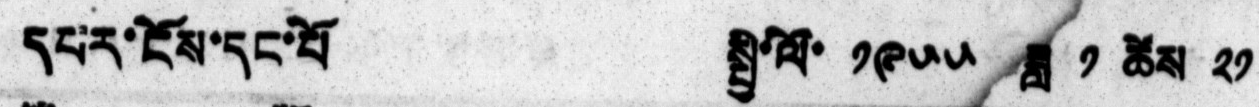དཔར་ངོས་དང་པོ   སྤྱི་ལོ་ ༡༩༥༥ ཟླ་ ༡ ཚེས ༢༡
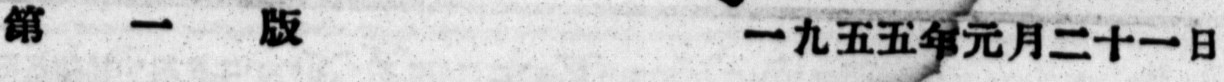第 一 版 一九五五年元月二十一日
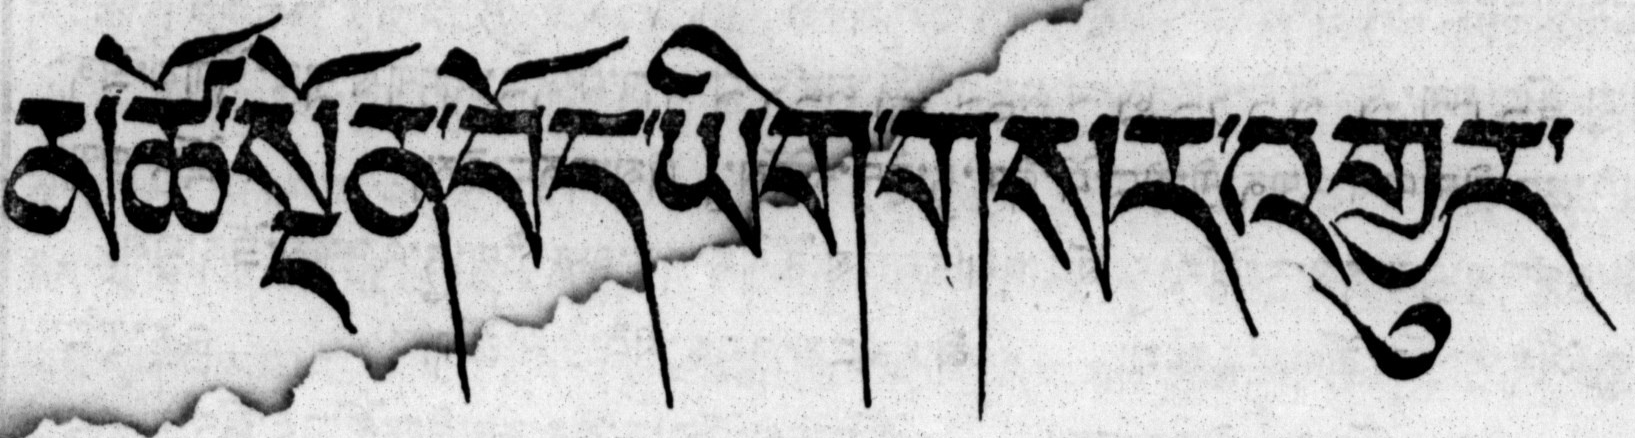མཚོ་སྔོན་བོད་ཡིག་གསར་འགྱུར་
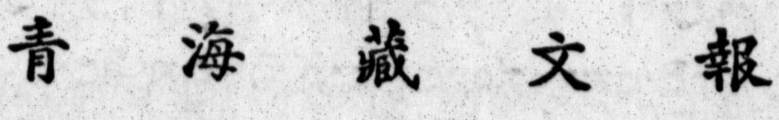青 海 藏 文 報
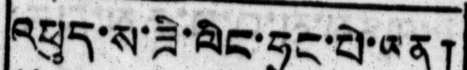འཕུད་ས་ཟི་ལིང་ཧྲང་པེ་ཡན།
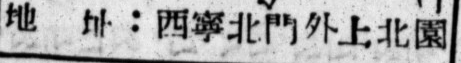地 址：西寧北門外上北園西報文年月上地會
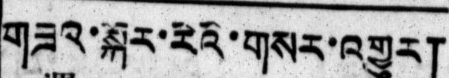གཟའ་སྐོར་རེའི་གསར་འགྱུར།
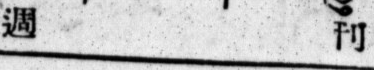週 刊
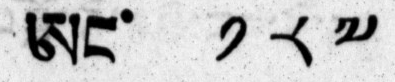ཨང་ ༡༨༧
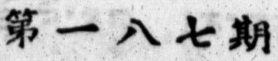第一八七期
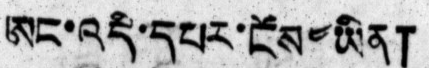ཨང་འདི་དཔར་ངོས༤ཡིན།
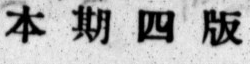本 期 四 版
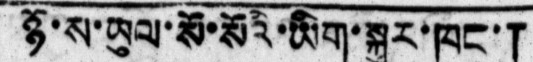ཉོ་ས་ཡུལ་སོ་སོའི་ཡིག་སྐུར་ཁང་།
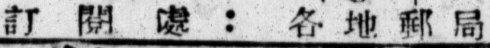訂 閱 處 ： 各 地 郵 局
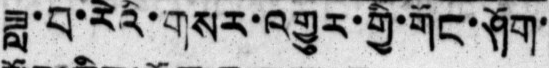ཟླ་བ་རེའི་གསར་འགྱུར་གྱི་གོང་ཤོག
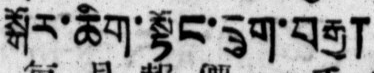སྒོར་ཆིག་སྟོང་དྲུག་བརྒྱ།
